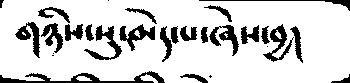གཉིས་སུ་མེད་པ་ཞེས་བྱ།
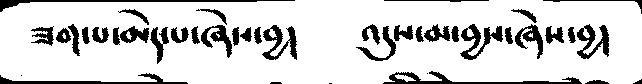ཟག་པ་མེད་པ་ཞེས་བྱ།   འདུས་མ་བྱས་ཞེས་བྱ།
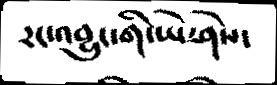རང་འབྱུང་གི་ཡེ་ཤེས་
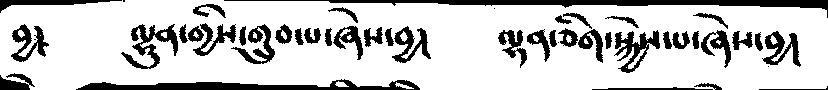བྱ།    ལྷུན་གྱིས་གྲུབ་པ་ཞེས་བྱ།   ལྷན་ཅིག་སྐྱེས་པ་ཞེས་བྱ།
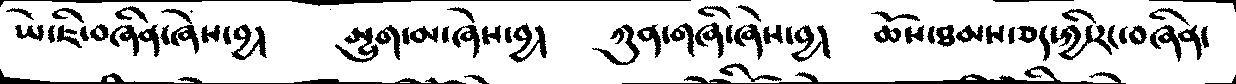ཡེ་ཇི་བཞིན་ཞེས་བྱ།   མྱུག་མ་ཞེས་བྱ།   ཀུན་གཞི་ཞེས་བྱ།   ཆོས་ཐམས་ཅད་ཀྱི་རང་བཞིན་
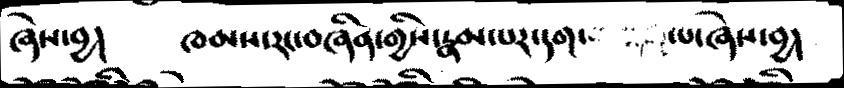ཞེས་བྱ།   ཁམས་རང་བཞིན་གྱིས་རྣམ་པར་དག་    པ་ཞེས་བྱ།
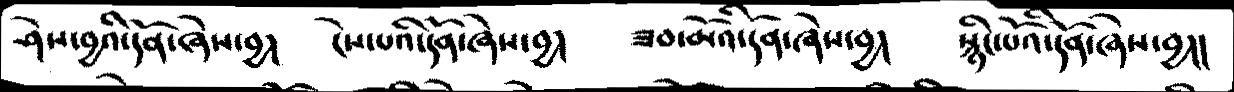ཤེས་བྱའི་དོན་ཞེས་བྱ།   ངེས་པའི་དོན་ཞེས་བྱ།   ཟབ་མོའི་དོན་ཞེས་བྱ།   སྙིང་པོའི་དོན་ཞེས་བྱ།།
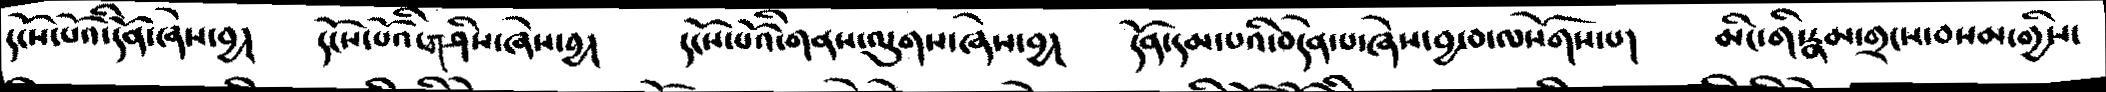དངོས་པོའི་དོན་ཞེས་བྱ།   དངོས་པོའི་གཤིས་ཞེས་བྱ།   དངོས་པོའི་གནས་ལུགས་ཞེས་བྱ།   དོན་དམ་པའི་བདེན་པ་ཞེས་བྱ་བ་ལསོགས་པ།   མིང་གི་རྣམ་གྲངས་བསམ་གྱིས་
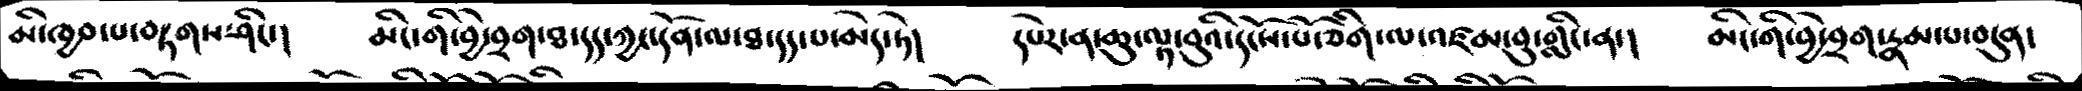མི་ཁྱབ་པ་བཏགས་ཤིང་།   མིང་གི་བྱེ་བྲག་ཐ་དད་ཀྱང་དོན་ལ་ཐ་དད་པ་མེད་ཏེ།    དཔེར་ན་ཆུ་ལྟ་བུའི་དངོས་པོ་ཅིག་ལ་འཛམ་བུ་གླིང་ན།   མིང་གི་བྱེ་བྲག་རྣམ་པ་བདུན་
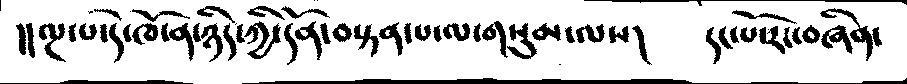།།ལྔ་པ་དེ་ཁོ་ན་ཉིད་ཀྱི་བསྟན་པ་ལ་གསུམ་ལས།   དང་པོ་རང་བཞིན་
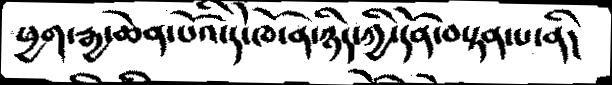ཕྱག་རྒྱ་ཆེན་པོའི་དེ་ཁོ་ན་ཉིད་ཀྱི་དོན་བསྟན་པ་ནི།
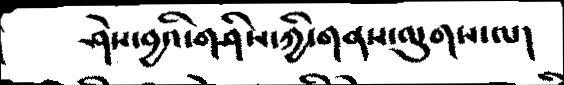ཤེས་བྱའི་གཤིས་ཀྱི་གནས་ལུགས་ལ།
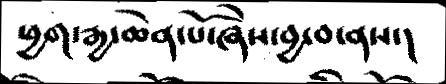ཕྱག་རྒྱ་ཆེན་པོ་ཞེས་བྱ་བ་ནས་།
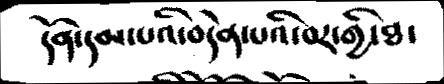དོན་དམ་པའི་བདེན་པའི་བར་གྱི་ཐ་
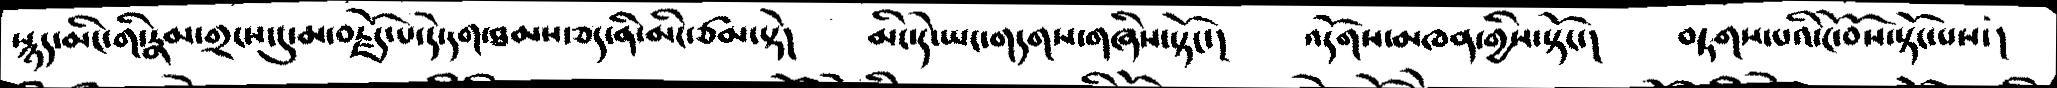སྙད་མིང་གི་རྣམ་གྲངས་དུ་མ་བརྗོད་པ་དེ་དག་ཐམས་ཅད་ནི་མིང་ཙམ་སྟེ།   མིང་དེ་ཡང་གདགས་གཞིས་སྟོང་།   འདོགས་མཁན་གྱིས་སྟོང་།  བཏགས་པའི་ངོ་བོས་སྟོང་པས་།
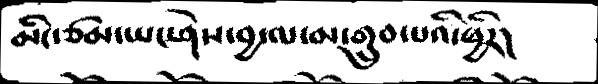མིང་ཙམ་ཡང་ཤེས་བྱ་ལ་མ་གྲུབ་པའི་ཕྱིར།
